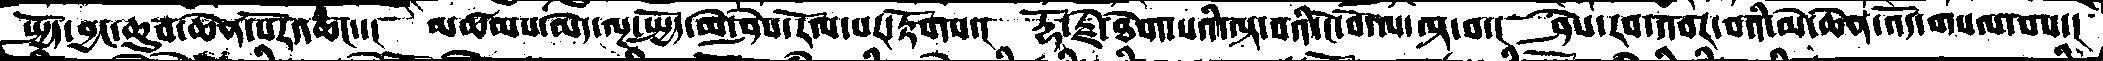སྤྱོད་བྱང་ཆུབ་ཆེན་པོར་འཆང་་།  མཚམས་མེད་ལྔ་སྤྱོད་མེ་ཤེས་རོལ་པར་རྟོགས་།  རྡོ་རྗེ་ཐེག་པའི་ལྟ་བའི་ངོ་བོ་ལ་ལྟ་བ་།  ཤེས་རབ་འབར་བའི་མེ་ཆེན་འོད་གསལ་བས་།
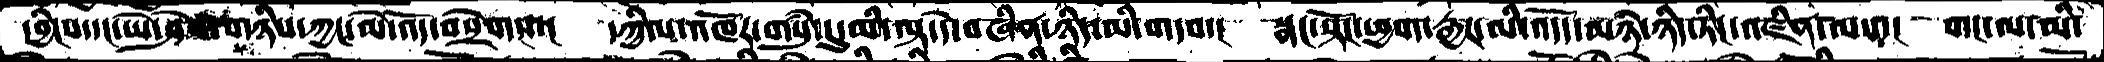དབྱིངས་དང་ཡེ་ཤེས་གཉིས་ཀྱང་མེ་འོད་བསྲེགས་།  དཀྱིལ་འཁོར་གསུཾ་དུ་མི་ལྟ་དེ་བཞིན་ཉིད་མི་གདབ་།  སྣང་སྟོང་ཕྱག་རྒྱར་མི་འདོད་མཉཾ་ཉིད་ཏིང་འཛིན་ལས་།  གང་ལ་མི་
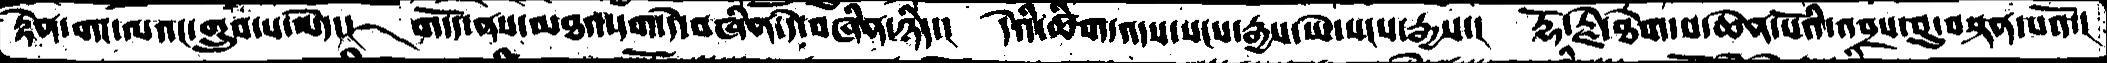རྟེན་གང་ལའང་གྲུབ་པ་མེད་ད།    གདོད་ནས་མཐའ་དག་དེ་བཞིན་དེ་བཞིན་ཉིད་།   དེའི་ཚིག་འདས་སངས་རྒྱས་ཡེ་སངས་རྒྱས་།    རྡོ་རྗེ་ཐེག་པ་ཆེན་པོའི་འབྲས་བུ་བསྟན་པའོ་།
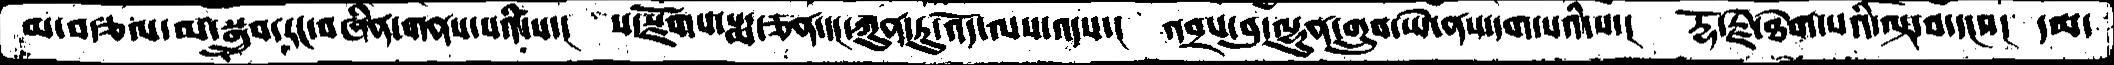མ་བརྩལ་མ་སྒྲུབ་རང་བཞིན་གནས་པའི་ས་།   ས་སྫོགས་པདྨ་ཅན་དང་ཀུན་ཏུ་འདོ་ལས་འདས་།   འབྲས་བུ་ལྷུན་གྲུབ་ཡེ་ནས་དག་པའི་ས་།    རྡོ་རྗེ་ཐེག་པའི་ལྟ་བ་དངས།  དམ་
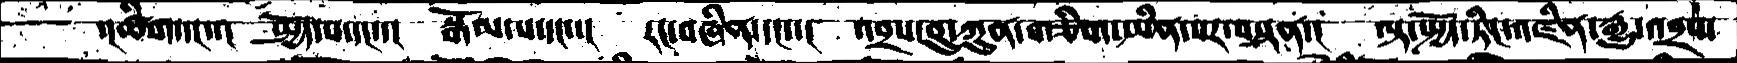་།ཚིག་དང་་།   སྤྱོད་པ་དང་་།   སྒོལ་པ་དང་་་།   རང་བཞིན་དང་་།   འབྲས་བུ་ཀུན་གཅིག་ཡིན་པར་བསྟན་།    ལྟ་སྤྱོད་ཏིང་འཛིན་རྒྱུ་འབྲས་
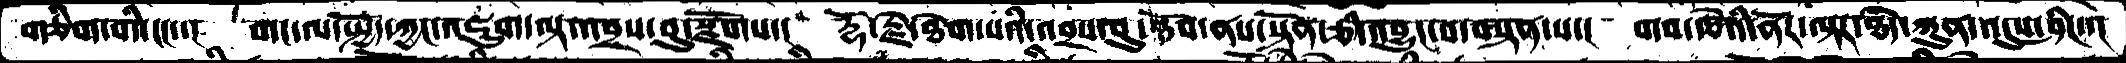གཅིག་པའི་ངང་་།   གང་ལ་སྤྱོད་ཀྱང་འཇུག་ལྟ་འབྲས་བུ་སྫོགས་་།   རྡོ་རྗེ་ཐེག་པའི་འབྲས་བུ་ཐོབ་ནས་སྟོན་ཅི་འབྱུང་བ་བསྟན་པ་།  གབ་ཚེའི་ནོར་ལྟར་ཐཾད་ཀུན་འདུས་ཤིང་་།
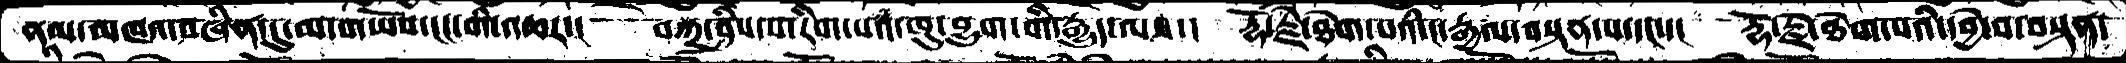ནམ་མཁའ་བཞིན་དུ་མ་གཡོས་ངང་གི་འཆར་།   བཀྲ་ཤིས་པ་རིག་པའི་ཁུ་བྱུག་གི་རྒྱུད་ལས་་   རྡོ་རྗེ་ཐེག་པའི་ང་རྒྱལ་བསྟན་པ་དང་་།   རྡོ་རྗེ་ཐེག་པའི་དབྱེ་བ་བསྟན་
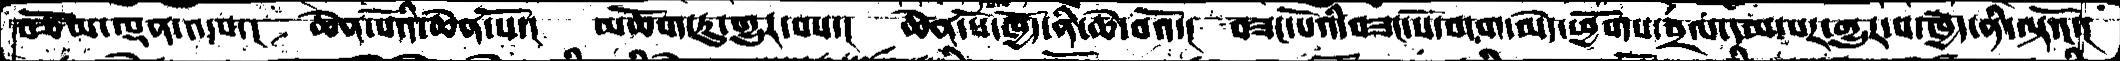བཅོམ་ལྡན་འདས་།  ཆེན་པོའི་ཆེན་པོ་།  མཆོག་ཏུ་གྱུར་བས་།  ཆེན་པོ་ཁྱོད་ནི་ཆེ་བའོ་།  བཟང་པོའི་བཟང་པོ་བདག་མེད་ཕྱོགས་བྲལ་དམ་པར་གྱུར་བ་ཁྱོད་ནི་ལྟའོ་།
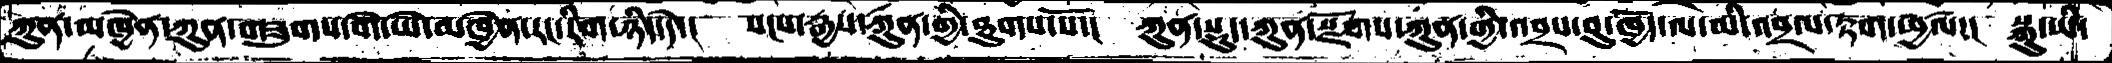ཀུན་མཁྱེན་ཀུན་གཟུགས་གི་ཡེ་མཁྱེན་རང་རིག་ཉིད་དེ་།  སངས་རྒྱས་ཀུན་གྱི་ཐུགས་སོ་།  ཀུན་སྡུད་ཀུན་སྫོགས་ཀུན་གྱི་འབྲས་བུ་ཁྱོད་ལ་མི་འབྲལ་རྟག་ཕྱཚལ་།  སྐུ་ཡི་
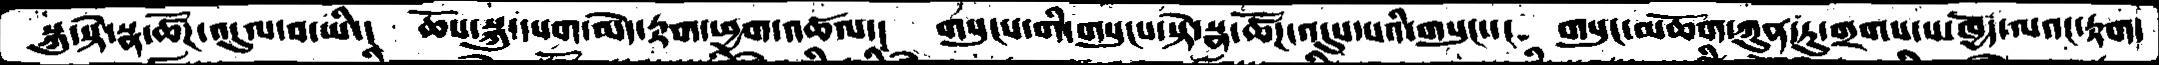སྐུ་སྟེ་སྣ་ཚོཌ་འདུལ་བ་ཡི་།  ཆོས་སྐུ་དཔག་མེད་རྟག་ཕྱག་འཚལ་།  གསུངས་གི་གསུངས་སྟེ་སྣ་ཚོཌ་འདུས་པའི་གསུང་་།  གསུང་མཆོག་ཀུན་ཏུ་གྲགས་པ་ཁྱོད་ལའང་རྟག་
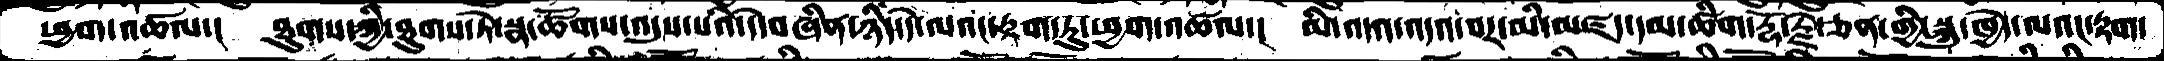ཕྱག་འཚལ་།  ཐུགས་ཀྱི་ཐུགས་ཏེ་སྣ་ཚོགས་འདུས་པའི་དེ་བཞིན་ཉིད་དེ་ལའང་རྟག་ཏུ་ཕྱག་འཚལ་།  མི་འདའ་བར་མི་མཛད་དམ་ཚིག་རྡོ་རྗེ་ཅན་གྱི་སྐུ་ཁྱེད་ལའང་རྟག་
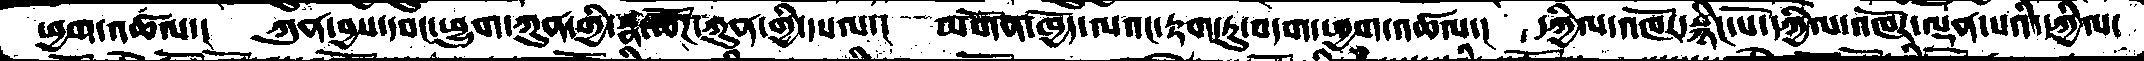ཕྱག་འཚལ་།  ཀུན་བྱས་དབང་ཕྱུག་ཀུན་གྱི་སྣ་ཚོཌ་ཀུན་གྱི་དཔལ་།  མགོན་ཁྱོད་ལའང་རྟག་ཏུ་བདག་ཕྱག་འཚལ་།  དཀྱིལ་འཁོར་སྙིང་པོ་དཀྱིལ་འཁོར་ལྡན་པའི་དཀྱིལ་
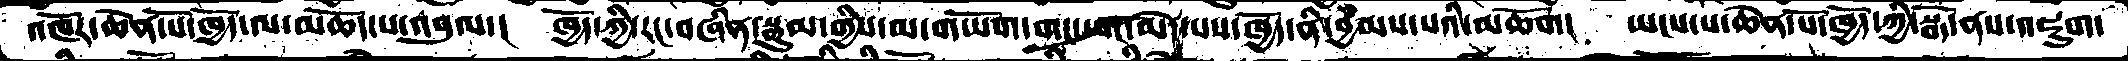འཁོར་ཆེན་པོ་ཁྱོད་ལ་མཆོད་པ་འབུལ་།  ཁྱོད་ཀྱི་རང་བཞིན་སྣུམ་གྱིས་མ་གཡོག་གང་དག་མེད་པས་ཁྱོད་ནི་བྱམས་པའི་མཆོག།  ཡངས་པ་ཆེན་པོ་ཁྱོད་ཀྱི་སྒོ་ནས་འཇུག་
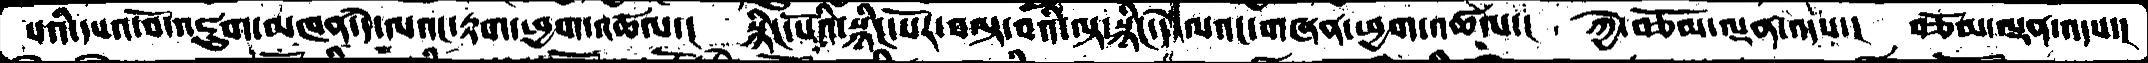པའི་དཔའ་བོ་འཇུག་མཁན་དེ་ལའང་རྟག་ཕྱག་འཚལ་།  སྙིང་པོའི་སྙིང་པོར་བལྟ་བའི་ལྟ་སྙིང་དེ་ལའང་གཞན་ཕྱག་འཚལ་།  ཀྱེ་བཅོམ་ལྡན་འདས་། བཅོམ་ལྡན་འདས་།
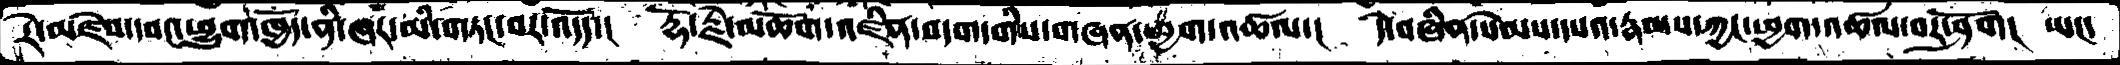རེ་མཛེས་དབང་ཕྱུག་ཁྱོད་ནི་ཞར་མི་གཏང་བར་འདོད་།  རྡོ་རྗེ་མཆོག་འཛིན་བདག་གིས་གཞན་ཕྱག་འཚལ་།  དེ་བཞིན་སེམས་དཔའ་རྣམས་ཀྱང་ཕྱག་འཚལ་བར་ཤོག། ཡང་
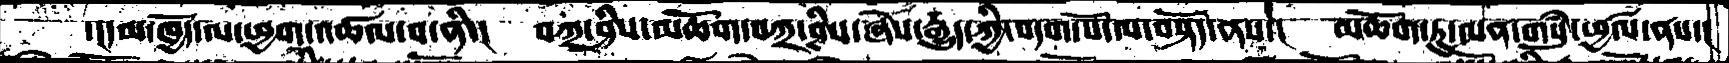་།དམ་ཁྱོད་ལ་ཕྱག་འཚལ་བ་ནི་།   བཀྲ་ཤིས་མཆོག་བཀྲ་ཤིས་ཞེས་རྒྱུད་ཀྱི་བདག་པོ་ལ་བསྟོད་ནས་།  མཆོག་ཏུ་ལན་གསུཾ་ཕྱཚལ་ནས་།
